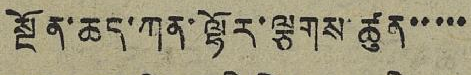སྔོན་ཆད་ཀན་ལྷོར་ལྕགས་ཚུན་་་་་
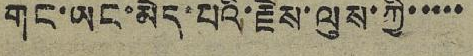གང་ཡང་མེད་པའི་རྗེས་ལུས་ཀྱི་་་་་
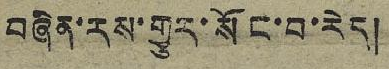བཞིན་རས་གྱུར་སོང་བ་རེད།
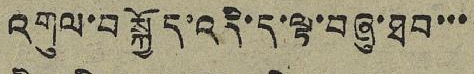འགུལ་བསྐྱོད་འདི་ད་ལྟ་བཞུ་ཐབ་་་
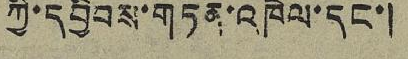ཀྱི་དབྱིབས་གཏན་འཁེལ་དང་།
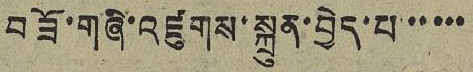བཟོ་གཞི་འཛུགས་སྐྲུན་བྱེད་པ་་་་་
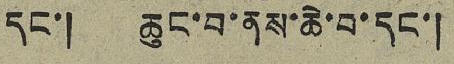དང་། ཆུང་བ་ནས་ཆེ་བ་དང་།
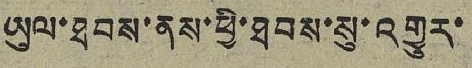ཡུལ་ཐབས་ནས་ཕྱི་ཐབས་སུ་འགྱུར་
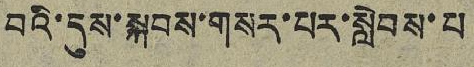བའི་དུས་སྐབས་གསར་པར་སླེབས་པ
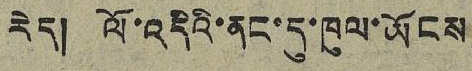རེད། ལོ་འདིའི་ནང་དུ་ཁུལ་ཡོངས
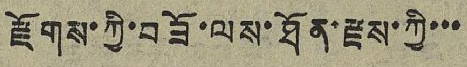རྫོགས་ཀྱི་བཟོ་ལས་ཐོན་རྫས་ཀྱི་་་
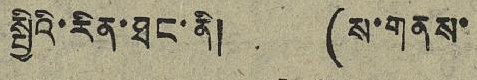སྤྱིའི་རིན་ཐང་ནི། (ས་གནས་
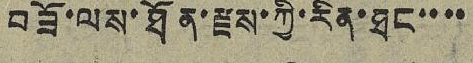བཟོ་ལས་ཐོན་རྫས་ཀྱི་རིན་ཐང་་་་
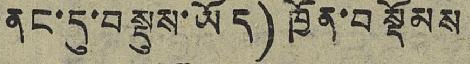ནང་དུ་བསྡུས་ཡོད་)ཁྱོན་བསྡོམས
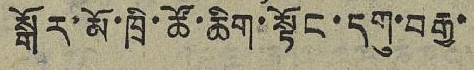སྒོར་མོ་ཁྲི་ཚོ་ཆིག་སྟོང་དགུ་བརྒྱ་
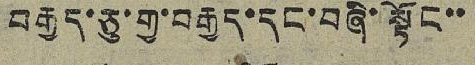བརྒྱད་ཅུ་གྱ་བརྒྱད་དང་བཞི་སྟོང་་
